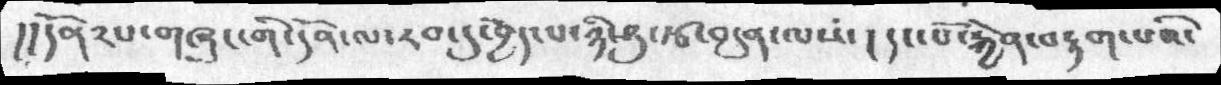།།དོན་༢པ་གཞུང་གི་དོན་ལ་རབ་དུ་བྱེད་པ་ཉིད་ཤུ་རྩ་བདུན་ལས་།   །དང་པོ་རྐྱེན་བརྟག་པའི་
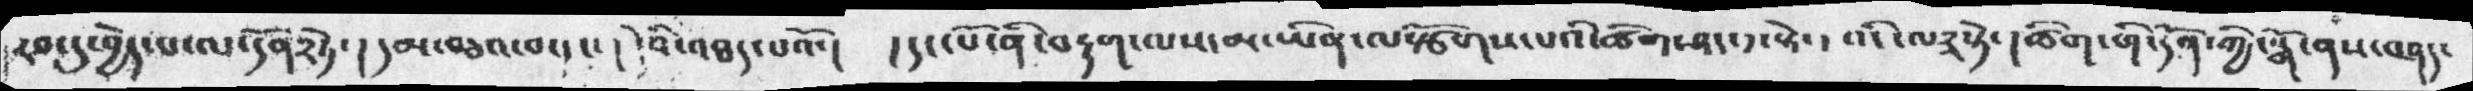རབ་དུ་བྱེད་པ་ལ་དོན༢ཏེ་ ། དམ་བཅའ་བ་དང་ ། དེའི་འཐད་པའོ་།  །དང་པོ་ནི་བརྟག་ལས་མ་ཡིན་ལ་སྩོགས་པའི་ཚིག་ཤད་༡་སྟེ་ །འདི་ལ༣སྟེ་  །ཚིག་གི་དོན་གྱི་སྒོ་ནས་བཤད་
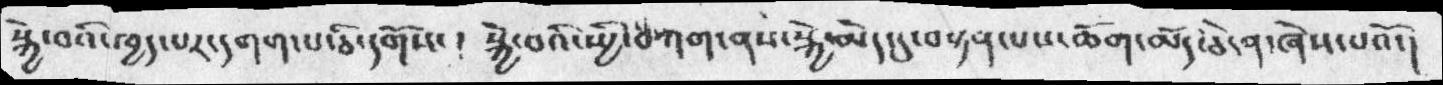སྐྱེ་བའི་ཁྱད་པར་དགག་པ་ཅི་དགོས་ ༴   སྐྱེ་བའི་སྤྱི་བཀག་ནས་སྐྱེ་མེད་དུ་བསྟན་པས་ཆོག་མོད་ཅེ་ན་ཞེས་པའོ་།
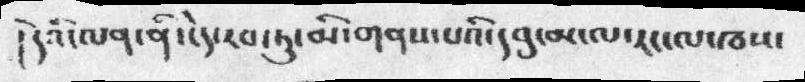། དེའི་ལན་ནི་ངེད་རབ་ཏུ་མི་གནས་པའི་དབུ་མ་ལ་རང་ལ་ཁས་
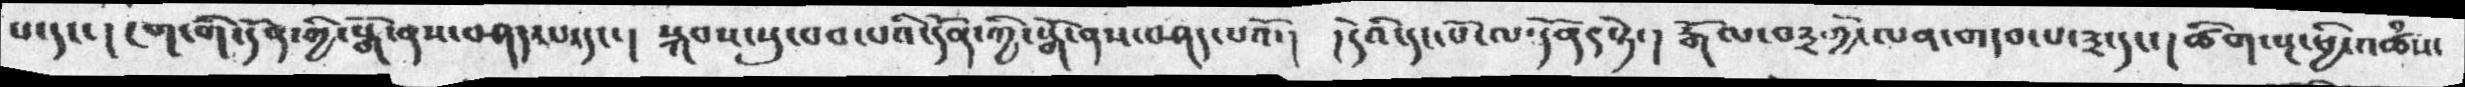པ་དང་། ངག་གི་དོན་གྱི་སྒོ་ནས་བཤད་པ་དང་།  སྐབས་སུ་བབ་པའི་དོན་ཀྱི་སྒོ་ནས་བཤད་པའོ་།  །དེའི་དང་པོ་ལ་དོན༩་སྟེ་།  རྒོལ་བ༣གྱི་ལན་གདབ་པ་༣་དང་།  ཚིག་སྔ་ཕྱི་འཚཾས་
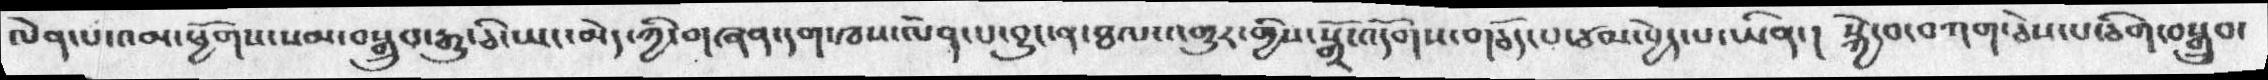ལེན་པ་འམ་ཕྱོགས་སམ་བསྒྲུབ་རྒྱུ་ཅི་ཡང་མེད་ཀྱི་གཞན་དག་ཁས་ལེན་པ་བྱུང་ན་ཐལ་འགྱུར་གྱི་སྒྲོ་འདོགས་གཅོད་པ་ཙམ་བྱེད་པ་ཡིན་།  སྐྱེ་བ་བཀག་ཅེས་པ་ཅིག་བསྒྲུབ་
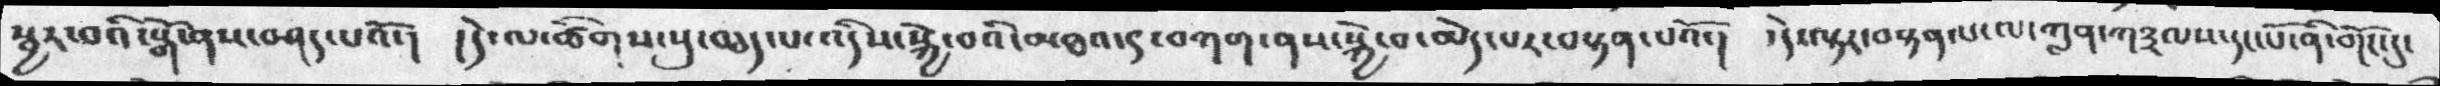སྦྱར་བའི་སྒོ་ནས་བཤད་པའོ་།  །དེ་ལ་ཚིགས་སུ་བཅད་པ་འདིས་སྐྱེ་བའི་མཐའ་༨་བཀག་ནས་སྐྱེ་བ་མེད་པར་བསྟན་པའོ་།  ་དེ་ལྟར་བསྟན་པ་ལ་ཀླན་ཀ༣ལས་དང་པོ་ནི་གོང་དུ་
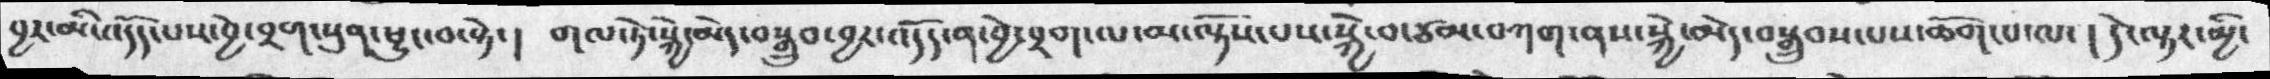བྱར་མི་འདོད་པས་བྱེ་བྲག་སུན་ཕྱུང་བ་སྟེ་།  གལ་ཏེ་སྐྱེ་མེད་བསྒྲུབ་བྱར་འདདོ་ན་བྱེ་བྲག་ལ་མ་ལྟོས་པས་སྐྱེ་བ་ཙམ་བཀག་ནས་སྐྱེ་མེད་བསྒྲུབས་པས་ཆོག་པ་ལ་  ། དེ་ལྟར་མྱི་
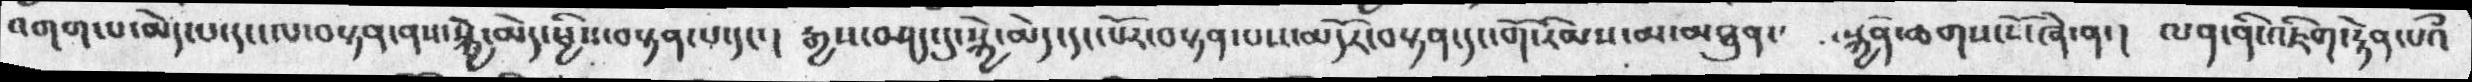འགག་པ་མེད་པ་དང་ལ་བསྟན་ནས་སྐྱེ་མེད་ཕྱིས་བསྟན་པ་དང་།  རྒྱས་བཤད་དུ་སྐྱེ་མེད་དང་པོར་བསྟན་པས་མདོན་བསྟན་དང་གོ་རིམས་མ་མཐུན་   སྐྱོན་ཆགས་སོ་ཞེ་ན་།  ལན་ནི་འཇིག་རྟེན་པའི
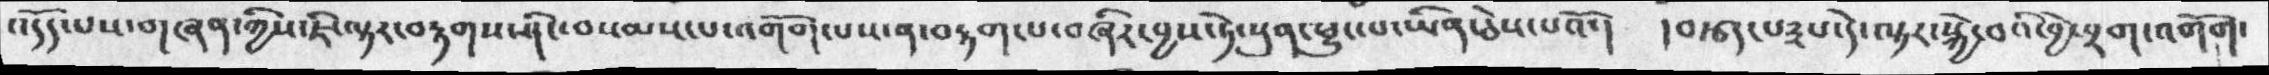འདོད་པས་གཞན་ཀྱིས་ཇི་ལྟར་བརྟགས་ཤིང་བསམས་པ་འགོག་པས་ན་བརྟག་པ་བཞིར་བྱས་ཏེ་སུན་ཕྱུང་པ་ཡིན་ཅེས་པའོ་།  །བརྩད་པ༣པ་དེ་ལྟར་སྐྱེ་བའི་བྱེ་བྲག་འགོག་
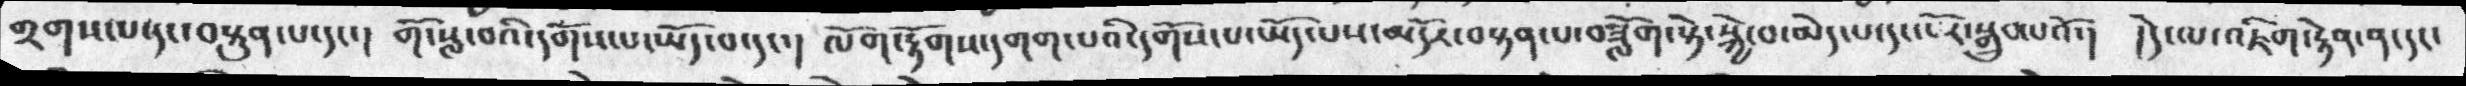གྲགས་པ་དང་བསྟུན་པ་དང་།  གོ་སླ་བའི་དགོས་པ་ཡོད་པ་དང་།   ལོག་རྟོགས་དགག་པའི་དགོས་པ་ཡོད་པས་མདོར་བསྟན་པ་བཟློག་སྟེ་སྐྱེ་བ་མེད་པ་དང་པོར་སྒྲུབ་པའོ་།  །དེ་ལ་འཇིག་རྟེན་ན་དང་
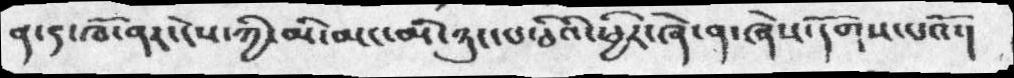ན་དེ་ཁོ་ནར་ངེས་ཀྱི་མི་མང་མི་ཉུང་པ་ཅིའི་ཕྱིར་ཞེས་ན་ཞེས་དགོས་པའོ་།
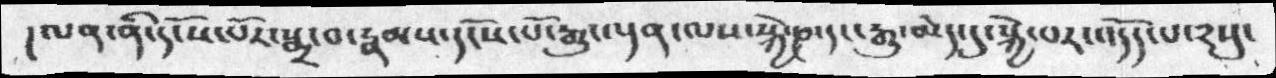། ལན་ནི་དངོས་པོར་སྨྲ་བ་རྣམས་དངོས་པོ་རྒྱུ་ལྡན་ལས་སྐྱེ་ཎ་དང་རྒྱུ་ཎ་དུ་སྐྱེ་པར་འདོད་པ་༢སུ་
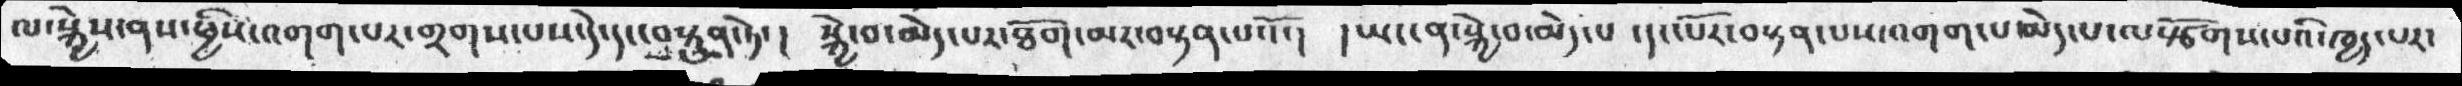ལ་སྐྱེས་ནས་ཕྱིས་འགག་པར་གྲགས་པས་དེ་དང་བསྟུན་ཏེ་ ། སྐྱེ་བ་མེད་པར་ཐོག་མར་བསྟན་པའོ་།   ། ཡང་ན་སྐྱེ་བ་མེད་པ ་དང་པོར་བསྟན་པས་འགག་པ་མེད་པ་ལསྩོགས་པའི་ཁྱད་པར་
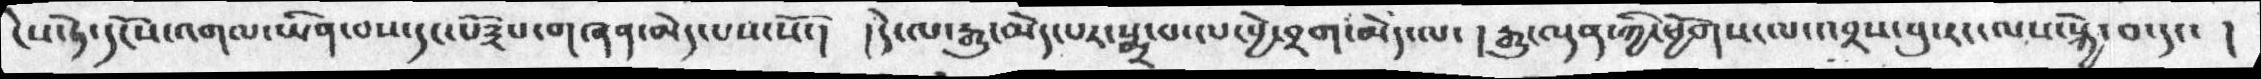ངེས་ཏེ་དངོས་འགལ་ཡིན་པས་དང་པོ༣པ་གཞན་མེད་པས་སོ་།  ། དེ་ལ་རྒྱུ་མེད་པར་སྨྲ་བ་ལ་བྱེ་བྲག་མེད་ལ་ ། རྒྱུ་ལྡན་ཀྱི་ཕྱོགས་ལ་འབྲས་བུ་རང་ལས་སྐྱེ་བ་དང་ །
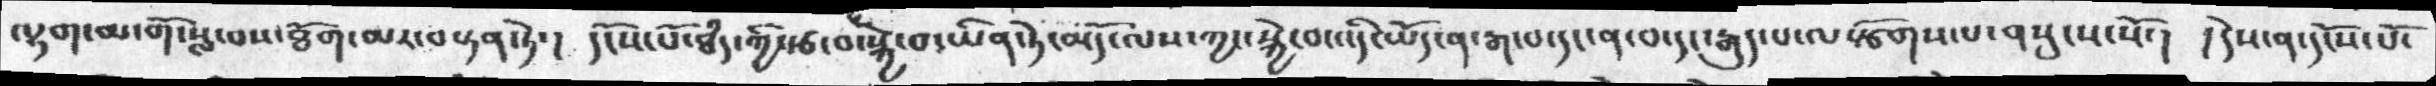ལྷག་མ་གོ་སླ་བས་ཐོག་མར་བསྟན་ཏེ་།  དངོས་པོ་ཐཾད་ཀྱི་རྩ་བ་སྐྱེ་བ་ཡིན་ཏེ་མདོ་ལས་ཀྱང་སྐྱེ་བ་འདི་ཡོད་ན་རྒ་པ་དང་ན་བ་དང་རྒུད་ལ་སྩོགས་པ་གསུངས་སོ་། ། དེས་ན་དངོས་པོ་
